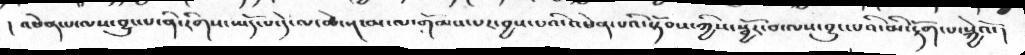། འཕེན་པ་ལས་བྱུང་པ་ནི་རིགས་ཡོད་པ་དེ་ལ་ཚེ་སྔ་མ་ལ་གོམས་པར་བྱས་པའི་འཕེན་པའི་སྟོབས་ཀྱིས་སྦྱོར་བ་ལས་བྱུང་པའི་མི་རྟོག་པ་སྐྱེའོ་།
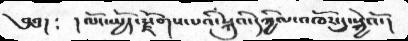༄༅། ༴ ། ལོང་སྤྱོད་རྫོགས་པའི་སྐུའི་དཀྱིལ་འཁོར་དུ་སྐྱེའོ་།
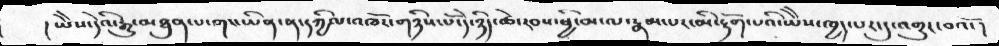།ཡེེས་དེའི་རྒྱུ་མཐུན་པ་གང་ཡིན་ན་དཀྱིལ་འཁོར་གཉིས་པོ་དེ་ཉིད་ཚེ་རབས་ཕྱི་མ་ལ་རྣམ་པར་མི་རྟོག་པའི་ཡེེས་ཁྱད་པར་དུ་འགྱུར་བའོ་།
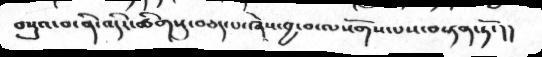བསྡུའ་བ་ནི་འདིར་ཚིགསུ་བཅད་པ་ཞེས་བྱ་བ་ལསོགས་པས་བསྟན་ཏོ་།།
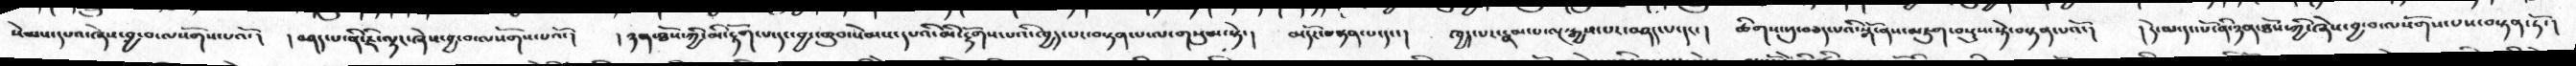སེམས་དཔའ་ཞེས་བྱ་བ་ལསོགས་པའོ་།   །བཤད་པ་ནི་ཇི་ལྟར་ཞེས་བྱ་བ་ལསོགས་པའོ་།  །ཉན་ཐོས་ཀྱི་མི་རྟོག་པ་དང་བྱང་ཆུབ་སེམས་དཔའི་མི་རྟོགས་པའི་ཁྱད་པར་བསྟན་པ་ལ་གསུམ་སྟེ་།  མདོར་བསྟན་པ་དང་།  ཁྱད་པར་རྣམ་པ་ལྔ་རྒྱས་པར་བཤད་པ་དང་།  ཚིགས་སུ་བཅད་པའི་སྒོ་ནས་མཇུག་བསྡུས་སྟེ་བསྟན་པའོ་།  །དེ་ལ་དང་པོ་ནི་ཉན་ཐོས་ཀྱི་ཞེས་བྱ་བ་ལསོགས་པས་བསྟན་ཏོ་།
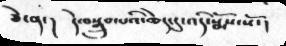ཅེ་ན་།  དེ་བསྒྲུབ་པའི་ཆེད་དུ་འདི་སྨོས་སོ་།
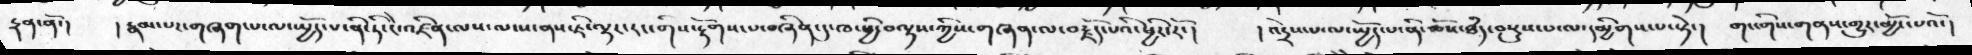རྟན་ནོ་།    ། རྣམ་པར་གཞག་པ་ལ་སྤྱོད་པ་ནི་ཏི་ངེ་འཛིན་ལས་ལངས་ནས་ཇི་ལྟར་རང་གིས་རྟོགས་པ་བཞིན་དུ་ཁ་ཕྱི་བལྟས་ཀྱིས་གཞན་ལ་བརྗོད་པའི་ཕྱིར་རོ་།     ། འདྲེས་པ་ལ་སྤྱོད་པ་ནི་ཆོས་ཐཾད་བསྡུས་པ་ལ་དམྱིགས་པ་སྟེ་།     གང་གིས་གནས་གྱུར་མྱོང་པའོ་།
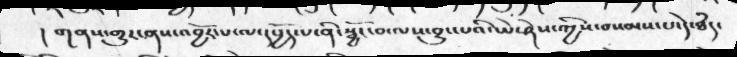། གནས་གྱུར་ནས་འབྱོར་པ་ལ་དཔྱོད་པ་ནི་སྦྱོང་བ་ལས་བྱུང་པའི་ཡེ་ཤེས་ཀྱིས་བསམས་པ་དེ་ཐཾད་
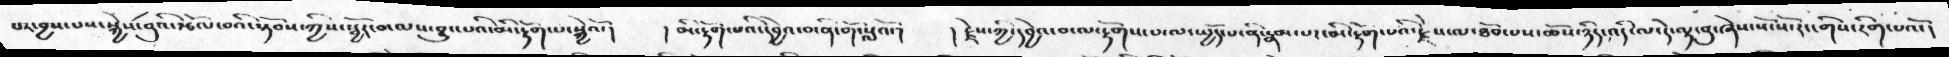པར་བྱས་པས་སྐྱེས་བུའི་རྩོལ་བའི་སྟོབས་ཀྱིས་སྦྱོར་བ་ལས་བྱུང་པའི་མི་རྟོག་པ་སྐྱེའོ་།     ། མི་རྟོག་པའི་དབྱེའ་བ་ནི་གོ་སླའོ་།     ། རྗེས་ཀྱི་དབྱེའ་བ་ལ་རྟོགས་པ་ལ་སྤྱོད་པ་ནི་རྣམ་པ་མི་རྟོག་པའི་རྗེས་ལ་ཐོབ་པས་ཆོས་ཉིད་འདི་ལ་དེ་ལྟ་བུ་ཞེས་སོ་སོ་རང་གིས་རིག་པའོ་།
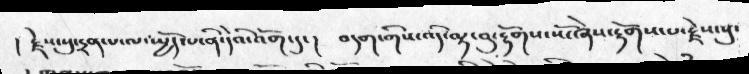།   རྗེས་སུ་དྲན་པ་ལ་སྤྱོད་པ་ནི་དེའི་འོག་དུ་།    བདག་གིས་འདི་ལྟ་བུ་རྟོགས་སོ་ཞེས་རྟོགས་པ་རྗེས་སུ་
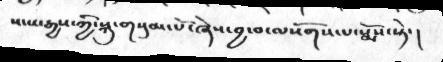སངས་རྒྱས་ཀྱི་སྐུ་གསུམ་པོ་ཞེས་བྱ་བ་ལསོགས་པ་སྨོས་སྟེ་།
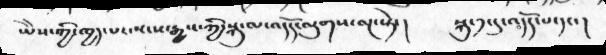ཡཻས་ཀྱི་ཁྱད་པར་སངས་རྒྱས་ཀྱི་སྐུ་ལ་འདོད་ལུགས་ལྔ་སྟེ་།  སྐུ་༡་དུ་འདོད་པ་དང་།
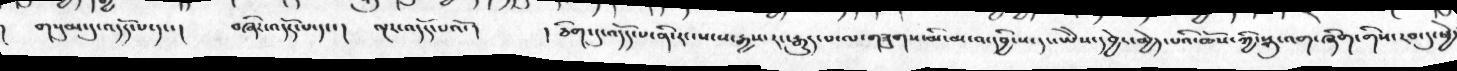།  གསུམ་དུ་འདོད་པ་དང་།   བཞིར་འདོད་པ་དང་།   ལྔར་འདོད་པའོ་།   །ཅིག་དུ་འདོད་པ་ནི་རང་སངས་རྒྱས་རང་རྒྱུད་པ་ལ་གཟུགས་མི་མ་བ་དབྱིངས་དང་ཡཻས་དབྱེར་མྱེད་པའི་ཆོས་ཀྱི་སྐུ་འག་ཞིག་གིས་རབ་དུ་ཕྱེ་
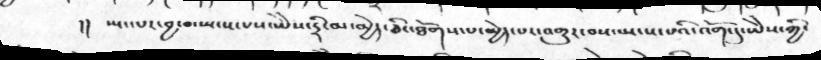།།  སྤང་པར་བྱ་བ་སྤངས་པས་ཡཻས་དྲི་མ་མྱེད་ཅིང་ཐོགས་པ་མྱེད་པར་འགྱུར་བས་སྤངས་པའི་འོག་དུ་ཡཻས་ཀྱི་
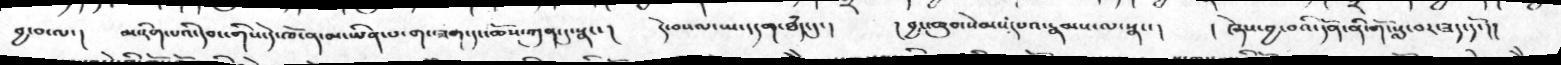བྱ་བ་ལ་།  མ་རིག་པའི་དབང་་གིས་དེ་ཁོ་ན་མ་ཡིན་པ་གང་ཟག་དང་ཆོས་ཀུན་དུ་སྣང་།  དེ་བསལ་ཡང་དག་ཐདཾ་དུ་།  །བྱང་ཆུབ་སེམསདཔའ་རྣམས་ལ་སྣང་།  ། ཞེས་བྱ་བའི་དོན་ནི་གོ་སླ་བར་ཟད་དོ་།།
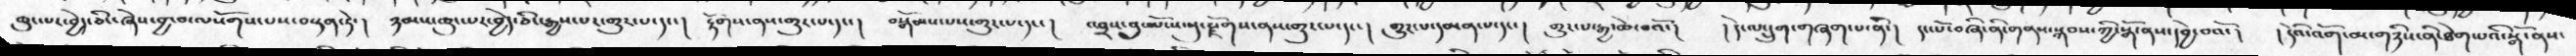ཆུང་པར་བྱེད་ཅིང་ཞེས་བྱ་བ་ལསོགས་པས་བསྟན་ཏེ་།  ཉམས་ཆུང་པར་བྱེད་ཅིང་རྒྱས་པར་གྱུར་པ་དང་།  རྟོགས་ནས་གྱུར་པ་དང་།   བསྒོམས་པས་གྱུར་པ་དང་།  འབྲས་བུ་ཡོངས་སུ་རྫོགས་ནས་གྱུར་པ་དང་།  གྱུར་པ་དམན་་པ་དང་།  གྱུར་པ་རྒྱ་ཆེ་བའོ་།  ། དེ་ལ་དྲུག་གཞག་པ་ནི་།  དང་པོ་བཞི་ནི་གནས་སྐབས་ཀྱི་སྒོ་ནས་དབྱེ་བའོ་།  ། དེའི་འོག་མ་གཉིས་ནི་ཐེག་པའི་སྒོ་ནས་
